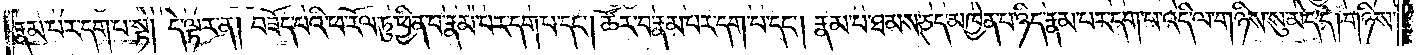རྣམ་པར་དག་པ་སྟེ། དེ་ལྟར་ན། བཟོད་པའི་ཕ་རོལ་ཏུ་ཕྱིན་པ་རྣམ་པར་དག་པ་དང༌། ཚོར་བ་རྣམ་པར་དག་པ་དང༌། རྣམ་པ་ཐམས་ཅད་མཁྱེན་པ་ཉིད་རྣམ་པར་དག་པ་འདི་ལ་གཉིས་སུ་མེད་དེ། གཉིས་
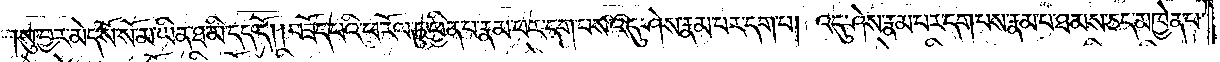སུ་བྱར་མེད་སོ་སོ་མ་ཡིན་ཐ་མི་དད་དོ། །བཟོད་པའི་ཕ་རོལ་ཏུ་ཕྱིན་པ་རྣམ་པར་དག་པས་འདུ་ཤེས་རྣམ་པར་དག་པ། འདུ་ཤེས་རྣམ་པར་དག་པས་རྣམ་པ་ཐམས་ཅད་མཁྱེན་པ་
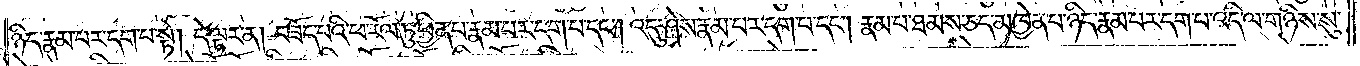ཉིད་རྣམ་པར་དག་པ་སྟེ། དེ་ལྟར་ན། བཟོད་པའི་ཕ་རོལ་ཏུ་ཕྱིན་པ་རྣམ་པར་དག་པ་དང༌། འདུ་ཤེས་རྣམ་པར་དག་པ་དང༌། རྣམ་པ་ཐམས་ཅད་མཁྱེན་པ་ཉིད་རྣམ་པར་དག་པ་འདི་ལ་གཉིས་སུ་
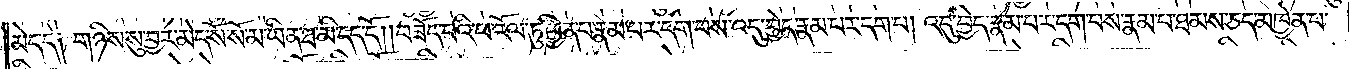མེད་དེ༑ གཉིས་སུ་བྱར་མེད་སོ་སོ་མ་ཡིན་ཐ་མི་དད་དོ། །བཟོད་པའི་ཕ་རོལ་ཏུ་ཕྱིན་པ་རྣམ་པར་དག་པས་འདུ་བྱེད་རྣམ་པར་དག་པ། འདུ་བྱེད་རྣམ་པར་དག་པས་རྣམ་པ་ཐམས་ཅད་མཁྱེན་པ་
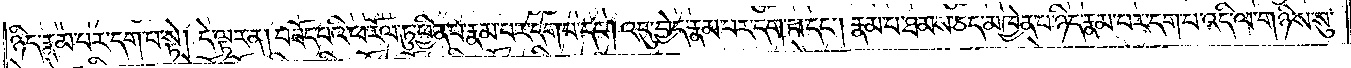ཉིད་རྣམ་པར་དག་པ་སྟེ། དེ་ལྟར་ན། བཟོད་པའི་ཕ་རོལ་ཏུ་ཕྱིན་པ་རྣམ་པར་དག་པ་དང༌། འདུ་བྱེད་རྣམ་པར་དག་པ་དང༌། རྣམ་པ་ཐམས་ཅད་མཁྱེན་པ་ཉིད་རྣམ་པར་དག་པ་འདི་ལ་གཉིས་སུ་
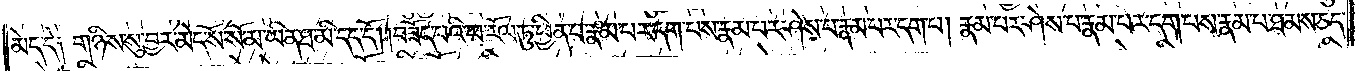མེད་དེ༑ གཉིས་སུ་བྱར་མེད་སོ་སོ་མ་ཡིན་ཐ་མི་དད་དོ། །བཟོད་པའི་ཕ་རོལ་ཏུ་ཕྱིན་པ་རྣམ་པར་དག་པས་རྣམ་པར་ཤེས་པ་རྣམ་པར་དག་པ། རྣམ་པར་ཤེས་པ་རྣམ་པར་དག་པས་རྣམ་པ་ཐམས་ཅད་
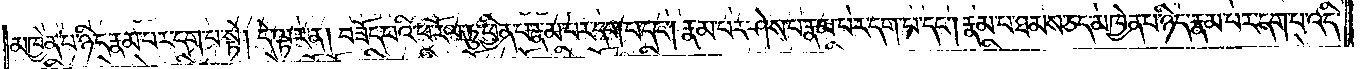མཁྱེན་པ་ཉིད་རྣམ་པར་དག་པ་སྟེ། དེ་ལྟར་ན། བཟོད་པའི་ཕ་རོལ་ཏུ་ཕྱིན་པ་རྣམ་པར་དག་པ་དང༌། རྣམ་པར་ཤེས་པ་རྣམ་པར་དག་པ་དང༌། རྣམ་པ་ཐམས་ཅད་མཁྱེན་པ་ཉིད་རྣམ་པར་དག་པ་འདི་
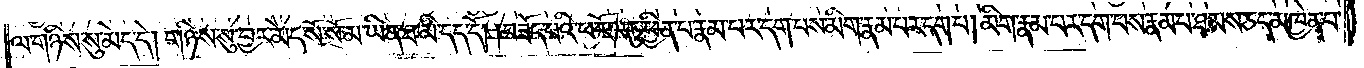ལ་གཉིས་སུ་མེད་དེ། གཉིས་སུ་བྱར་མེད་སོ་སོ་མ་ཡིན་ཐ་མི་དད་དོ། །བཟོད་པའི་ཕ་རོལ་ཏུ་ཕྱིན་པ་རྣམ་པར་དག་པས་མིག་རྣམ་པར་དག་པ། མིག་རྣམ་པར་དག་པས་རྣམ་པ་ཐམས་ཅད་མཁྱེན་པ་
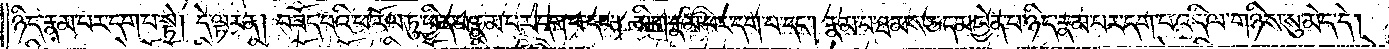ཉིད་རྣམ་པར་དག་པ་སྟེ། དེ་ལྟར་ན། བཟོད་པའི་ཕ་རོལ་ཏུ་ཕྱིན་པ་རྣམ་པར་དག་པ་དང༌། མིག་རྣམ་པར་དག་པ་དང༌། རྣམ་པ་ཐམས་ཅད་མཁྱེན་པ་ཉིད་རྣམ་པར་དག་པ་འདི་ལ་གཉིས་སུ་མེད་དེ།
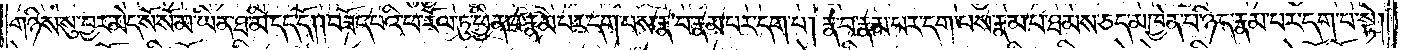གཉིས་སུ་བྱར་མེད་སོ་སོ་མ་ཡིན་ཐ་མི་དད་དོ། །བཟོད་པའི་ཕ་རོལ་ཏུ་ཕྱིན་པ་རྣམ་པར་དག་པས་རྣ་བ་རྣམ་པར་དག་པ། རྣ་བ་རྣམ་པར་དག་པས་རྣམ་པ་ཐམས་ཅད་མཁྱེན་པ་ཉིད་རྣམ་པར་དག་པ་སྟེ།
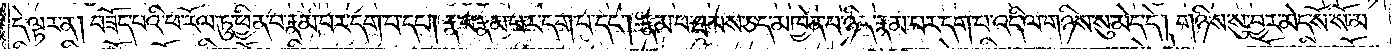དེ་ལྟར་ན། བཟོད་པའི་ཕ་རོལ་ཏུ་ཕྱིན་པ་རྣམ་པར་དག་པ་དང་། རྣ་བ་རྣམ་པར་དག་པ་དང༌། རྣམ་པ་ཐམས་ཅད་མཁྱེན་པ་ཉིད་རྣམ་པར་དག་པ་འདི་ལ་གཉིས་སུ་མེད་དེ། གཉིས་སུ་བྱར་མེད་སོ་སོ་མ་
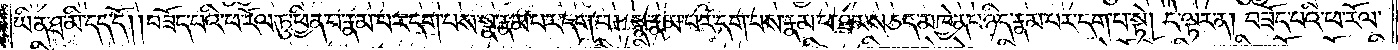ཡིན་ཐ་མི་དད་དོ། །བཟོད་པའི་ཕ་རོལ་ཏུ་ཕྱིན་པ་རྣམ་པར་དག་པས་སྣ་རྣམ་པར་དག་པ། སྣ་རྣམ་པར་དག་པས་རྣམ་པ་ཐམས་ཅད་མཁྱེན་པ་ཉིད་རྣམ་པར་དག་པ་སྟེ། དེ་ལྟར་ན། བཟོད་པའི་ཕ་རོལ་
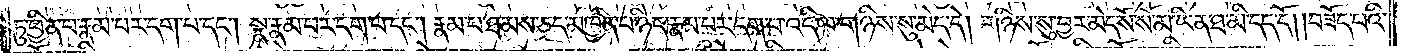ཏུ་ཕྱིན་པ་རྣམ་པར་དག་པ་དང༌། སྣ་རྣམ་པར་དག་པ་དང་། རྣམ་པ་ཐམས་ཅད་མཁྱེན་པ་ཉིད་རྣམ་པར་དག་པ་འདི་ལ་གཉིས་སུ་མེད་དེ། གཉིས་སུ་བྱར་མེད་སོ་སོ་མ་ཡིན་ཐ་མི་དད་དོ། །བཟོད་པའི་
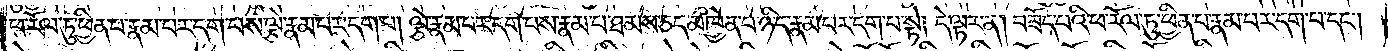ཕ་རོལ་ཏུ་ཕྱིན་པ་རྣམ་པར་དག་པས་ལྕེ་རྣམ་པར་དག་པ། ལྕེ་རྣམ་པར་དག་པས་རྣམ་པ་ཐམས་ཅད་མཁྱེན་པ་ཉིད་རྣམ་པར་དག་པ་སྟེ། དེ་ལྟར་ན། བཟོད་པའི་ཕ་རོལ་ཏུ་ཕྱིན་པ་རྣམ་པར་དག་པ་དང༌།
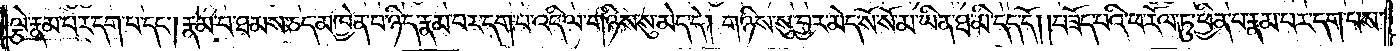ལྕེ་རྣམ་པར་དག་པ་དང༌། རྣམ་པ་ཐམས་ཅད་མཁྱེན་པ། ཉིད་རྣམ་པར་དག་པ་འདི་ལ་གཉིས་སུ་མེད་དེ། གཉིས་སུ་བྱར་མེད་སོ་སོ་མ་ཡིན་ཐ་མི་དད་དོ། །བཟོད་པའི་ཕ་རོལ་ཏུ་ཕྱིན་པ་རྣམ་པར་དག་པས་
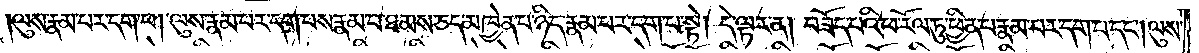ལུས་རྣམ་པར་དག་པ། ལུས་རྣམ་པར་དག་པས་རྣམ་པ་ཐམས་ཅད་མཁྱེན་པ་ཉིད་རྣམ་པར་དག་པ་སྟེ། དེ་ལྟར་ན་བཟོད་པའི་ཕ་རོལ་ཏུ་ཕྱིན་པ་རྣམ་པར་དག་པ་དང༌། ལུས་
